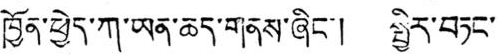ཁྱོན་ཕྱེད་ཀ་ཡན་ཆད་གནས་ཞིང་། སྤྱིར་བཏང་
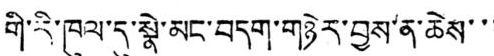གི་རི་ཁུལ་དུ་སྣེ་མང་བདག་གཉེར་བྱས་ན་ཆེས་་་
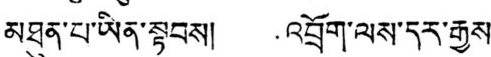མཐུན་པ་ཡིན་སྟབས། འབྲོག་ལས་དར་རྒྱས་
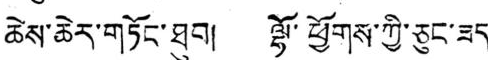ཆེས་ཆེར་གཏོང་ཐུབ། ལྷོ་ཕྱོགས་ཀྱི་ཅུང་ཟད་
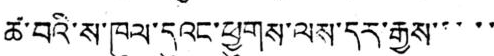ཚ་བའི་ས་ཁུལ་དུའང་ཕྱུགས་ལས་དར་རྒྱས་་་་་
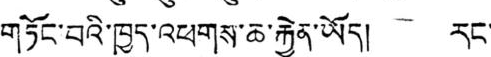གཏོང་བའི་ཁྱད་འཕགས་ཆ་རྐྱེན་ཡོད། རང་
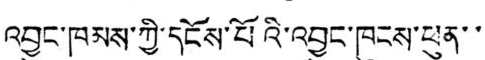འབྱུང་ཁམས་ཀྱི་དངོས་པོའི་འབྱུང་ཁུངས་ཕུན་་་
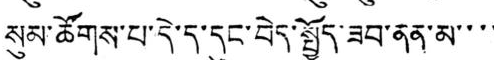སུམ་ཚོགས་པ་དེ་ད་དུང་བེད་སྤྱོད་ཟབ་ནན་མ་་་་
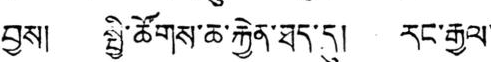བྱས། སྤྱི་ཚོགས་ཆ་རྐྱེན་ཐད་དུ། རང་རྒྱལ་
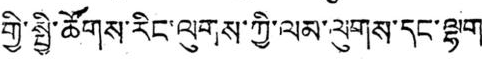གྱི་སྤྱི་ཚོགས་རིང་ལུགས་ཀྱི་ལམ་ལུགས་དང་ལྷག་
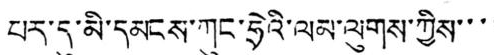པར་དུ་མི་དམངས་ཀུང་ཧྲེའི་ལམ་ལུགས་ཀྱིས་་་་
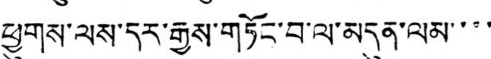ཕྱུགས་ལས་དར་རྒྱས་གཏོང་བ་ལ་མདུན་ལམ་་་་
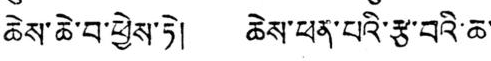ཆེས་ཆེ་བ་ཕྱེས་ཏེ། ཆེས་ཕན་པའི་རྩ་བའི་ཆ་
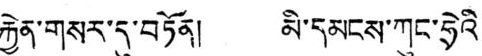རྐྱེན་གསར་དུ་བཏོན། མི་དམངས་ཀུང་ཧྲེའི་
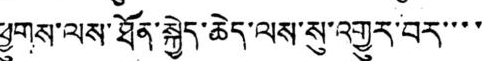ཕྱུགས་ལས་ཐོན་སྐྱེད་ཆེད་ལས་སུ་འགྱུར་བར་་་་
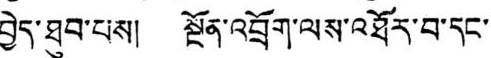བྱེད་ཐུབ་པས། སྔོན་འབྲོག་ལས་འཐོར་བ་དང་
